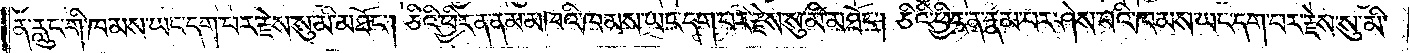ན་རླུང་གི་ཁམས་ཡང་དག་པར་རྗེས་སུ་མི་མཐོང༌། ཅིའི་ཕྱིར་ན་ནམ་མཁའི་ཁམས་ཡང་དག་པར་རྗེས་སུ་མི་མཐོང༌། ཅིའི་ཕྱིར་ན་རྣམ་པར་ཤེས་པའི་ཁམས་ཡང་དག་པར་རྗེས་སུ་མི་
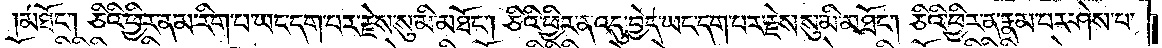མཐོང༌། ཅིའི་ཕྱིར་ན་མ་རིག་པ་ཡང་དག་པར་རྗེས་སུ་མི་མཐོང༌། ཅིའི་ཕྱིར་ན་འདུ་བྱེད་ཡང་དག་པར་རྗེས་སུ་མི་མཐོང༌། ཅིའི་ཕྱིར་ན་རྣམ་པར་ཤེས་པ་
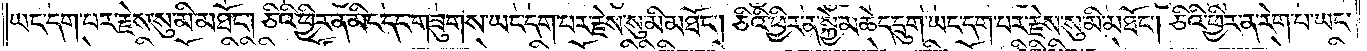ཡང་དག་པར་རྗེས་སུ་མི་མཐོང༌། ཅིའི་ཕྱིར་ན་མིང་དང་གཟུགས་ཡང་དག་པར་རྗེས་སུ་མི་མཐོང༌། ཅིའི་ཕྱིར་ན་སྐྱེ་མཆེད་དྲུག་ཡང་དག་པར་རྗེས་སུ་མི་མཐོང༌། ཅིའི་ཕྱིར་ན་རེག་པ་ཡང་
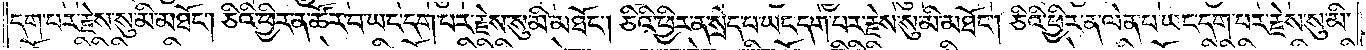དག་པར་རྗེས་སུ་མི་མཐོང༌། ཅིའི་ཕྱིར་ན་ཚོར་བ་ཡང་དག་པར་རྗེས་སུ་མི་མཐོང༌། ཅིའི་ཕྱིར་ན་སྲེད་པ་ཡང་དག་པར་རྗེས་སུ་མི་མཐོང༌། ཅིའི་ཕྱིར་ན་ལེན་པ་ཡང་དག་པར་རྗེས་སུ་མི་
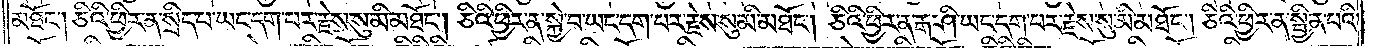མཐོང༌། ཅིའི་ཕྱིར་ན་སྲིད་པ་ཡང་དག་པར་རྗེས་སུ་མི་མཐོང༌། ཅིའི་ཕྱིར་ན་སྐྱེ་བ་ཡང་དག་པར་རྗེས་སུ་མི་མཐོང༌། ཅིའི་ཕྱིར་ན་རྒ་ཤི་ཡང་དག་པར་རྗེས་སུ་མི་མཐོང༌། ཅིའི་ཕྱིར་ན་སྦྱིན་པའི་
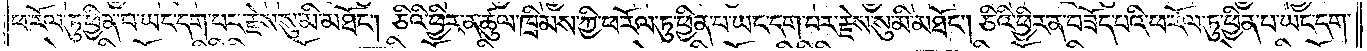ཕ་རོལ་ཏུ་ཕྱིན་པ་ཡང་དག་པར་རྗེས་སུ་མི་མཐོང༌། ཅིའི་ཕྱིར་ན་ཚུལ་ཁྲིམས་ཀྱི་ཕ་རོལ་ཏུ་ཕྱིན་པ་ཡང་དག་པར་རྗེས་སུ་མི་མཐོང༌། ཅིའི་ཕྱིར་ན་བཟོད་པའི་ཕ་རོལ་ཏུ་ཕྱིན་པ་ཡང་དག་
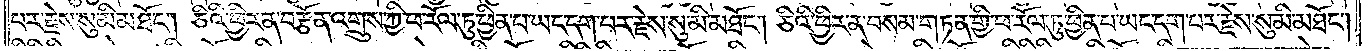པར་རྗེས་སུ་མི་མཐོང༌། ཅིའི་ཕྱིར་ན་བརྩོན་འགྲུས་ཀྱི་ཕ་རོལ་ཏུ་ཕྱིན་པ་ཡང་དག་པར་རྗེས་སུ་མི་མཐོང༌། ཅིའི་ཕྱིར་ན་བསམ་གཏན་གྱི་ཕ་རོལ་ཏུ་ཕྱིན་པ་ཡང་དག་པར་རྗེས་སུ་མི་མཐོང༌།
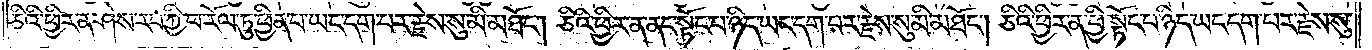ཅིའི་ཕྱིར་ན་ཤེས་རབ་ཀྱི་ཕ་རོལ་ཏུ་ཕྱིན་པ་ཡང་དག་པར་རྗེས་སུ་མི་མཐོང༌། ཅིའི་ཕྱིར་ན་ནང་སྟོང་པ་ཉིད་ཡང་དག་པར་རྗེས་སུ་མི་མཐོང༌། ཅིའི་ཕྱིར་ན་ཕྱི་སྟོང་པ་ཉིད་ཡང་དག་པར་རྗེས་སུ་
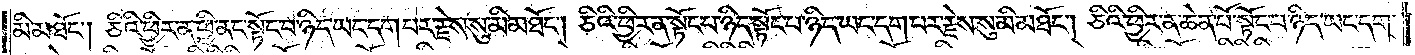མི་མཐོང༌། ཅིའི་ཕྱིར་ན་ཕྱི་ནང་སྟོང་པ་ཉིད་ཡང་དག་པར་རྗེས་སུ་མི་མཐོང༌། ཅིའི་ཕྱིར་ན་སྟོང་པ་ཉིད་སྟོང་པ་ཉིད་ཡང་དག་པར་རྗེས་སུ་མི་མཐོང༌། ཅིའི་ཕྱིར་ན་ཆེན་པོ་སྟོང་པ་ཉིད་ཡང་དག་
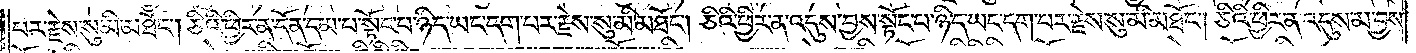པར་རྗེས་སུ་མི་མཐོང༌། ཅིའི་ཕྱིར་ན་དོན་དམ་པ་སྟོང་པ་ཉིད་ཡང་དག་པར་རྗེས་སུ་མི་མཐོང༌། ཅིའི་ཕྱིར་ན་འདུས་བྱས་སྟོང་པ་ཉིད་ཡང་དག་པར་རྗེས་སུ་མི་མཐོང༌། ཅིའི་ཕྱིར་ན་འདུས་མ་བྱས་
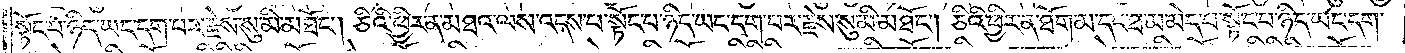སྟོང་པ་ཉིད་ཡང་དག་པར་རྗེས་སུ་མི་མཐོང༌། ཅིའི་ཕྱིར་ན་མཐའ་ལས་འདས་པ་སྟོང་པ་ཉིད་ཡང་དག་པར་རྗེས་སུ་མི་མཐོང༌། ཅིའི་ཕྱིར་ན་ཐོག་མ་དང་ཐ་མ་མེད་པ་སྟོང་པ་ཉིད་ཡང་དག་
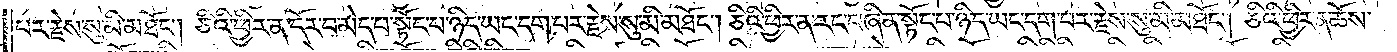པར་རྗེས་སུ་མི་མཐོང༌། ཅིའི་ཕྱིར་ན་དོར་བ་མེད་པ་སྟོང་པ་ཉིད་ཡང་དག་པར་རྗེས་སུ་མི་མཐོང༌། ཅིའི་ཕྱིར་ན་རང་བཞིན་སྟོང་པ་ཉིད་ཡང་དག་པར་རྗེས་སུ་མི་མཐོང༌། ཅིའི་ཕྱིར་ན་ཆོས་
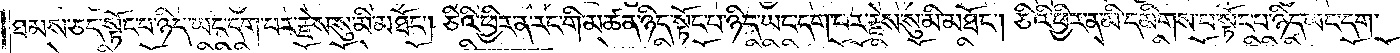ཐམས་ཅད་སྟོང་པ་ཉིད་ཡང་དག་པར་རྗེས་སུ་མི་མཐོང༌། ཅིའི་ཕྱིར་ན་རང་གི་མཚན་ཉིད་སྟོང་པ་ཉིད་ཡང་དག་པར་རྗེས་སུ་མི་མཐོང༌། ཅིའི་ཕྱིར་ན་མི་དམིགས་པ་སྟོང་པ་ཉིད་ཡང་དག་
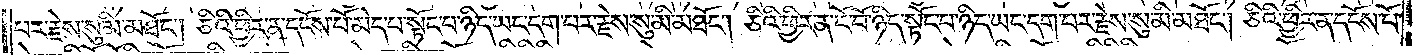པར་རྗེས་སུ་མི་མཐོང༌། ཅིའི་ཕྱིར་ན་དངོས་པོ་མེད་པ་སྟོང་པ་ཉིད་ཡང་དག་པར་རྗེས་སུ་མི་མཐོང༌། ཅིའི་ཕྱིར་ན་ངོ་བོ་ཉིད་སྟོང་པ་ཉིད་ཡང་དག་པར་རྗེས་སུ་མི་མཐོང༌། ཅིའི་ཕྱིར་ན་དངོས་པོ་
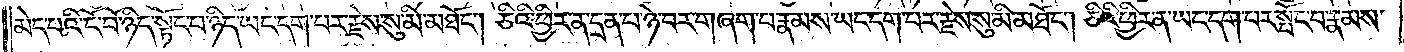མེད་པའི་ངོ་བོ་ཉིད་སྟོང་པ་ཉིད་ཡང་དག་པར་རྗེས་སུ་མི་མཐོང༌། ཅིའི་ཕྱིར་ན་དྲན་པ་ཉེ་བར་བཞག་པ་རྣམས་ཡང་དག་པར་རྗེས་སུ་མི་མཐོང༌། ཅིའི་ཕྱིར་ན་ཡང་དག་པར་སྤོང་བ་རྣམས་
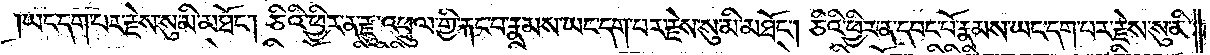ཡང་དག་པར་རྗེས་སུ་མི་མཐོང༌། ཅིའི་ཕྱིར་ན་རྫུ་འཕྲུལ་གྱི་རྐང་པ་རྣམས་ཡང་དག་པར་རྗེས་སུ་མི་མཐོང༌། ཅིའི་ཕྱིར་ན་དབང་པོ་རྣམས་ཡང་དག་པར་རྗེས་སུ་མི་
